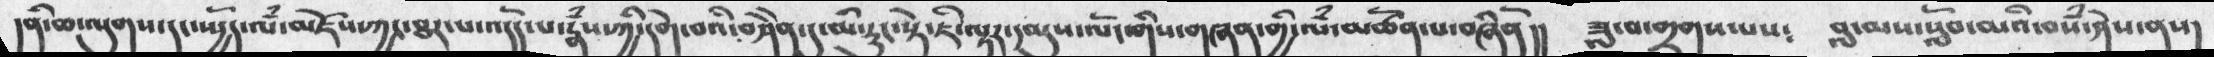དནི་ཆ་ལུགས་དང་ཡྱོད་ལཾ་མཇོས་ཀྱང་ཐར་པ་འདོད་པ་རྣཾས་ཀྱི་དགེ་བའི་བཤེེན་དུ་མི་རུང་སྟེ་ཇི་ལྟར་དམུས་ལོང་གིས་གཞན་གྱི་ལཾ་མཚོན་པ་བཞིནོ།།  ཟླ་བ་གྲགས་པས༴    བླ་མས་སློབ་མའི་བསཾ་ཤེས་ནས།
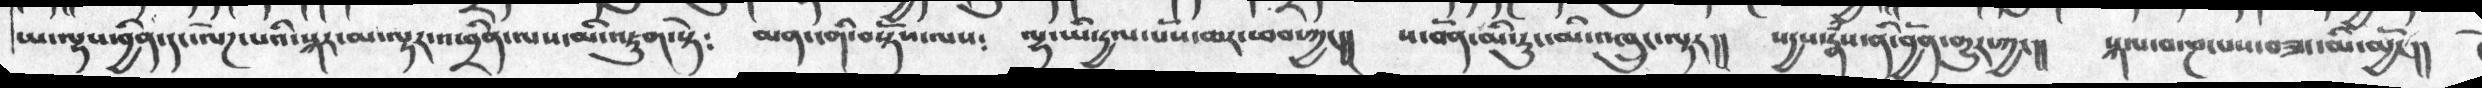ཡ་ལྷས་བྱིན་དང་ལེཌ་པའི་སྐར་མ་ལྟར་འཕྲིན་ལས་མི་འཇུག་སྟེ༴  མན་ངགི་བསྟོས་ལས༴  ལྷ་ཡི་དྱལ་པོས་ཆར་ཕབ་ཀྱང།།   ས་བོན་མི་རུང་མི་འཁུང་ལྟར།།   སདྱས་རྣཾས་ནི་བྱོན་གྱུར་ཀྱང།།   སྐལ་བ་ཎ་པས་བཟང་མི་མྱོང།།
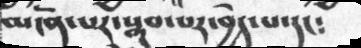མངོན་པར་སྒྲུབ་པར་བྱེད་པ་དང༴
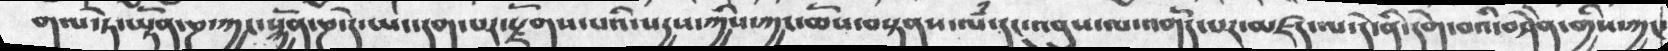གལ་ཏེ་ཡྟོན་ཎ་ཀྱང་སྐྱོན་ཎ་དེ་ཡང་དག་པར་རྫོགས་པའི་སདྱས་ཀྱིས་ཀྱང་ཆོས་བསྟནས་ལཾ་དང་འབྲུས་ལ་འགོད་པར་མཛད་ལ་དེ་ནི་དགེ་བའི་བཤེེན་གྱིས་ཀྱང་
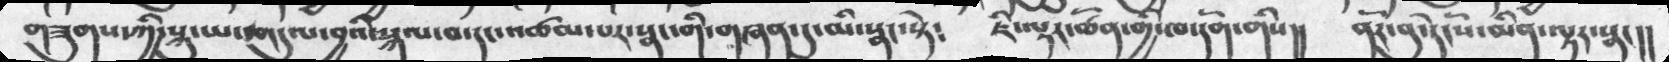གཟུགས་ཀྱི་སྐུ་ཡང་གདུལ་བྱའི་སྐལ་བ་དང་འཚལ་པར་སྣང་གི་གཞན་དུ་མི་སྣང་སྟེ༴  ཇི་ལྟར་ཚོན་གྱི་ཁ་དོག་གིས།།   ནོར་བུ་དེངོས་མིན་ལྟར་སྣང།།
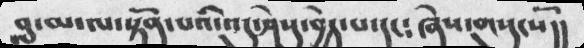བླ་མ་ལ་སྟོན་པའི་འདུ་ཤེསུ་བྱེད་པ་དང༴  ཞེས་གསུངསོ།།
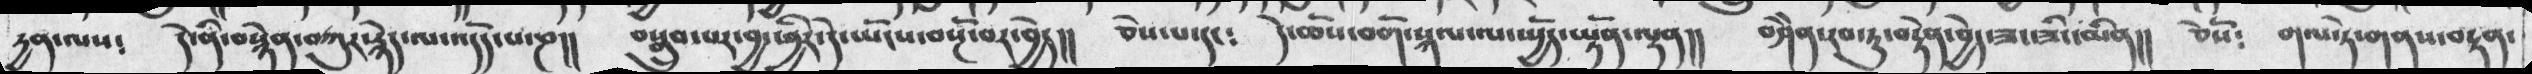དྱན་ལས༴  དེ་ནི་བསྙེན་བཀུར་སྙེད་ལ་འདོད་པ་ཎ།།  བསྒྲུབ་པར་བྱ་ཕྱིར་དེ་ཡོངས་བསྔོ་བར་བྱེད།།  ཅེས་པ་དང༴  དེ་ཆོས་བགོ་སྐལ་ལ་སྤྱོད་སྟོན་ལྡན།།  བཤེེན་རབ་ཏུ་བསྟེན་བྱེད་ཟང་ཟིང་མིན།།  ཅེསོ༴  གལ་ཏེ་གནས་བསྟན་
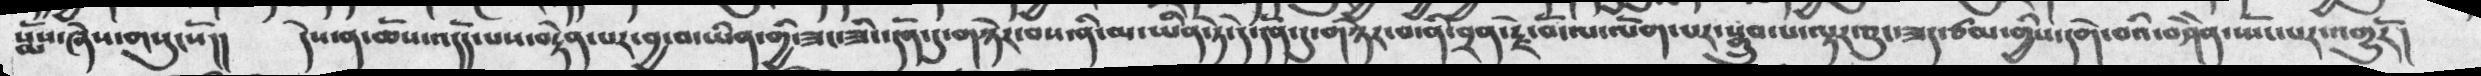སྨོས་ཞེས་གསུངསོ།།  དེ་ན་ཆོས་འདོད་པས་བརྟེན་པར་བྱ་བ་ཡིན་གྱི་ཟང་ཟིང་དོན་དུ་གཉེར་བས་ནི་མ་ཡིན་ཏེ་དེ་དོན་དེ་གཉེར་བ་ནི་བྲག་རྗེ་བོ་ལ་ལེག་པར་སྒྲུབ་པ་ལྟར་ཅུང་ཟད་ཙམ་གྱིད་ངགེ་བའི་བཤེེན་སྤོང་པར་འགྱུརོ།
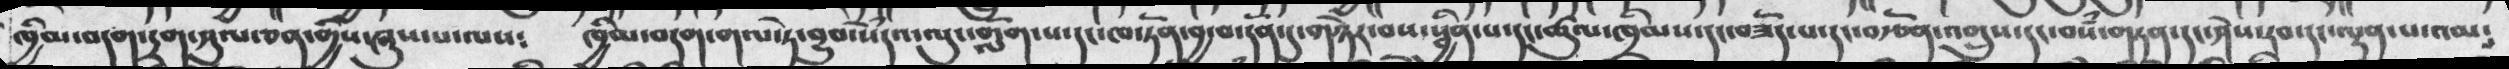ཁྱིམ་བདག་དྲག་ཤུལ་ཅན་གྱིས་ཞུས་པ་ལས༴  ཁྱིམ་བདག་གལ་ཏེ་བྱུབ་སེཾདའི་ལུང་གློག་པ་དང་ཁ་ཏོན་བྱ་བ་དོན་དུ་གཉེར་བས་སྦྱིན་པ་དང་ཚུལ་ཁྲིམས་དང་བཟོད་པ་དང་བརྩོན་འགྲུས་དང་བསཾ་གཏན་དང་ཤེས་རབ་དང་ལྡན་པ་འམ༴
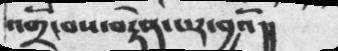འགྲོ་བས་བརྟེན་པར་བྱའོ།།
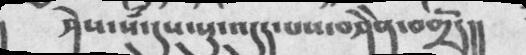ཤེས་སཾ་དུས་སུ་འདུད་པས་བཤེེན་བགྲོད།།
